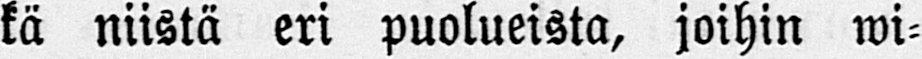kä niistä eri puolueista, joihin wi-
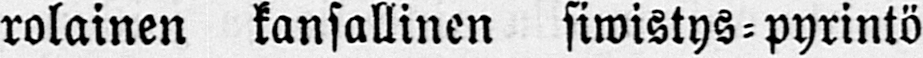rolainen kansallinen siwistys-pyrintö
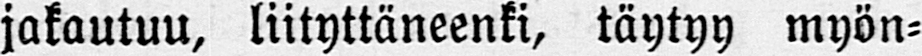jakautuu, liityttäneenki, täytyy myön-
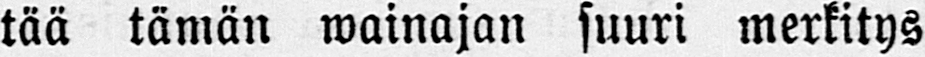tää tämän wainajan suuri merkitys
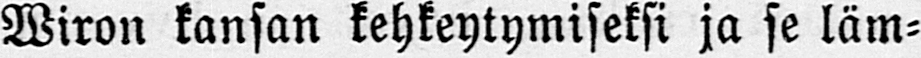Wiron kansan kehkeytymiseksi ja se läm-
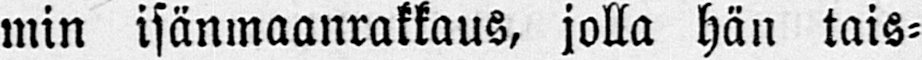min isänmaanrakkaus, jolla hän tais-
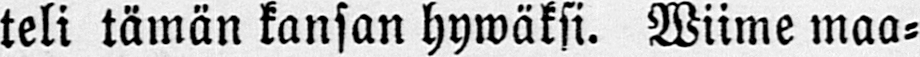teli tämän kansan hywäksi. Wiime maa-
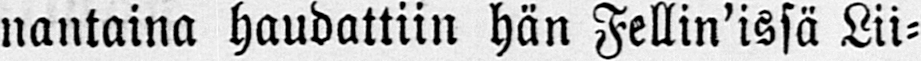nantaina haudattiin hän Fellin'issä Lii-
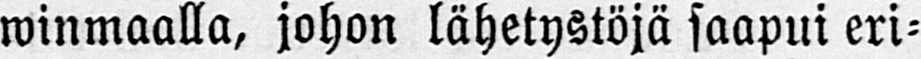winmaalla, johon lähetystöjä saapui eri-
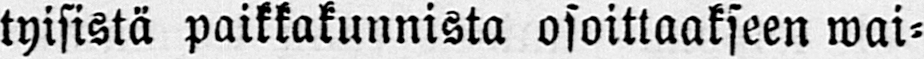tyisistä paikkakunnista osoittaakseen wai-
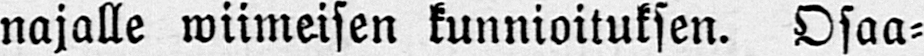najalle wiimeisen kunnioituksen. Osaa-
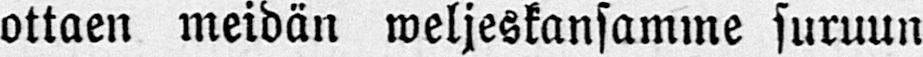ottaen meidän weljeskansamme suruun
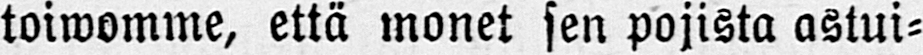toiwomme, että monet sen pojista astui-
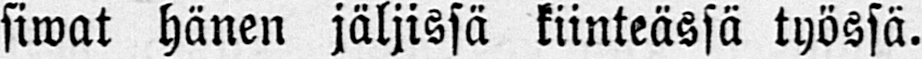siwat hänen jäljissä kiinteässä työssä,
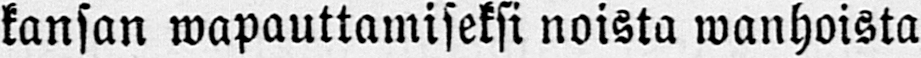kansan wapauttamiseksi noista wanhoista
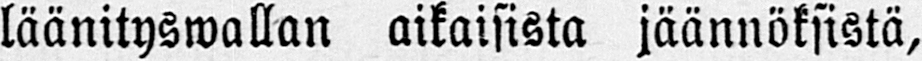läänityswallan aikaisista jäännöksistä,
